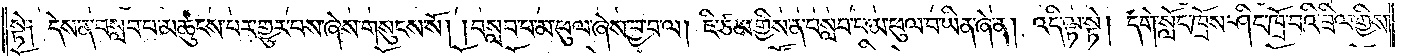སྟེ༑ དེས་ན་བསླབ་པ་མཚུངས་པར་གྱུར་པས་ཞེས་གསུངས་སོ། །བསླབ་པ་མ་ཕུལ་ཞེས་བྱ་བ་ལ། ཇི་ཙམ་གྱིས་ན་བསླབ་པ་མ་ཕུལ་བ་ཡིན་ཞེ་ན། འདི་ལྟ་སྟེ། དགེ་སློང་ཁྲོས་ཤིང་ཁྲོ་བའི་ཟིལ་གྱིས་
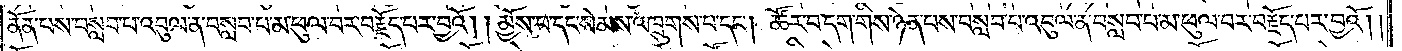ནོན་པས་བསླབ་པ་འབུལ་ན་བསླབ་པ་མ་ཕུལ་བར་བརྗོད་པར་བྱའོ། །མྱོས་པ་དང་སེམས་འཁྲུགས་པ་དང༌། ཚོར་བ་དག་གིས་ཉེན་པས་བསླབ་པ་འབུལ་ན་བསླབ་པ་མ་ཕུལ་བར་བརྗོད་པར་བྱའོ། །
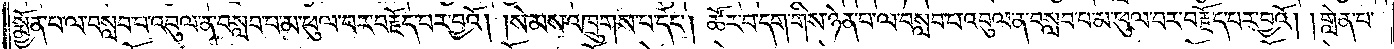སྨྱོན་པ་ལ་བསླབ་པ་འབུལ་ན་བསླབ་པ་མ་ཕུལ་བར་བརྗོད་པར་བྱའོ། །སེམས་འཁྲུགས་པ་དང༌། ཚོར་བ་དག་གིས་ཉེན་པ་ལ་བསླབ་པ་འབུལ་ན་བསླབ་པ་མ་ཕུལ་བར་བརྗོད་པར་བྱའོ། །གླེན་པ་
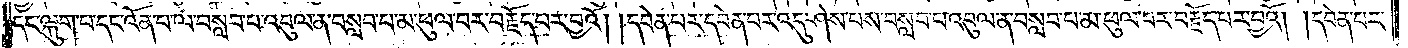དང་ལྐུག་པ་དང་འོན་པ་ལ་བསླབ་པ་འབུལ་ན་བསླབ་པ་མ་ཕུལ་བར་བརྗོད་པར་བྱའོ། །དབེན་པར་དབེན་པར་འདུ་ཤེས་པས་བསླབ་པ་འབུལ་ན་བསླབ་པ་མ་ཕུལ་བར་བརྗོད་པར་བྱའོ། །དབེན་པར་
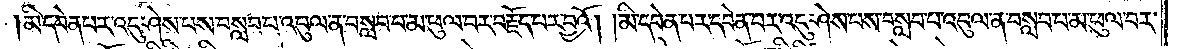།མི་དབེན་པར་འདུ་ཤེས་པས་བསླབ་པ་འབུལ་ན་བསླབ་པ་མ་ཕུལ་བར་བརྗོད་པར་བྱའོ། །མི་དབེན་པར་དབེན་པར་འདུ་ཤེས་པས་བསླབ་པ་འབུལ་ན་བསླབ་པ་མ་ཕུལ་བར་
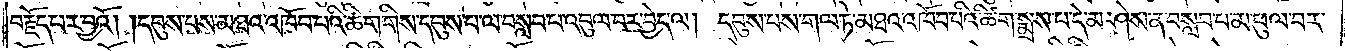བརྗོད་པར་བྱའོ། །དབུས་པས་མཐའ་འཁོབ་པའི་ཚིག་གིས་དབུས་པ་ལ་བསླབ་པ་འབུལ་བར་བྱེད་ལ། དབུས་པས་གལ་ཏེ་མཐའ་འཁོབ་པའི་ཚིག་སྨྲས་པ་དེ་མ་ཤེས་ན་བསླབ་པ་མ་ཕུལ་བར་
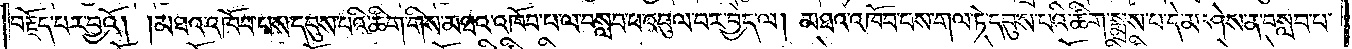བརྗོད་པར་བྱའོ། །མཐའ་འཁོབ་པས་དབུས་པའི་ཚིག་གིས་མཐའ་འཁོབ་པ་ལ་བསླབ་པ་འབུལ་བར་བྱེད་ལ། མཐའ་འཁོབ་པས་གལ་ཏེ་དབུས་པའི་ཚིག་སྨྲས་པ་དེ་མ་ཤེས་ན་བསླབ་པ་
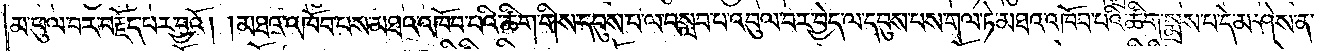མ་ཕུལ་བར་བརྗོད་པར་བྱའོ། །མཐའ་འཁོབ་པས་མཐའ་འཁོབ་པའི་ཚིག་གིས་དབུས་པ་ལ་བསླབ་པ་འབུལ་བར་བྱེད་ལ་དབུས་པས་གལ་ཏེ་མཐའ་འཁོབ་པའི་ཚིག་སྨྲས་པ་དེ་མ་ཤེས་ན་
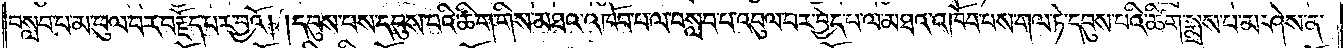བསླབ་པ་མ་ཕུལ་བར་བརྗོད་པར་བྱའོ། །དབུས་པས་དབུས་པའི་ཚིག་གིས་མཐའ་འཁོབ་པ་ལ་བསླབ་པ་འབུལ་བར་བྱེད་པ་ལ་མཐའ་འཁོབ་པས་གལ་ཏེ་དབུས་པའི་ཚིག་སྨྲས་པ་མ་ཤེས་ན་
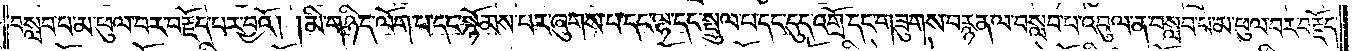བསླབ་པ་མ་ཕུལ་བར་བརྗོད་པར་བྱའོ། །མི་གཉིད་ལོག་པ་དང་སྙོམས་པར་ཞུགས་པ་དང་ལྷ་དང་སྤྲུལ་པ་དང་དུད་འགྲོ་དང་གཟུགས་བརྙན་ལ་བསླབ་པ་འབུལ་ན་བསླབ་པ་མ་ཕུལ་བར་བརྗོད་
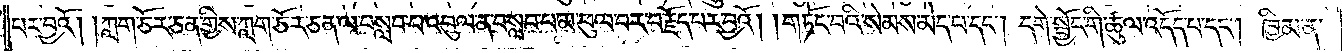པར་བྱའོ། །ཀླག་ཅོར་ཅན་གྱིས་ཀླག་ཅོར་ཅན་ལ་བསླབ་པ་འབུལ་ན་བསླབ་པ་མ་ཕུལ་བར་བརྗོད་པར་བྱའོ། །གཏོང་བའི་སེམས་མེད་པ་དང༌། དགེ་སྦྱོང་གི་ཚུལ་འདོད་པ་དང༌། ཁྱིམ་ན་
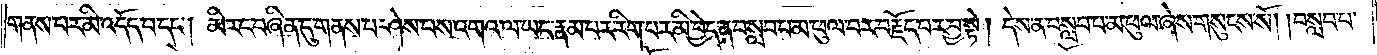གནས་པར་མི་འདོད་པ་དང༌། མི་རང་བཞིན་དུ་གནས་པ་ཤེས་པས་འགའ་ལ་ཡང་རྣམ་པར་རིག་པར་མི་བྱེད་ན་བསླབ་པ་མ་ཕུལ་བར་བརྗོད་པར་བྱ་སྟེ། དེས་ན་བསླབ་པ་མ་ཕུལ་ཞེས་གསུངས་སོ། །བསླབ་པ་
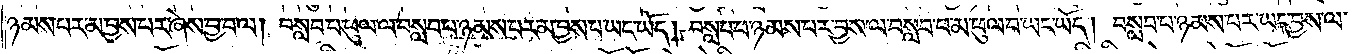ཉམས་པར་མ་བྱས་པར་ཞེས་བྱ་བ་ལ། བསླབ་པ་ཕུལ་ལ་བསླབ་པ་ཉམས་པར་མ་བྱས་པ་ཡང་ཡོད། བསླབ་པ་ཉམས་པར་བྱས་ལ་བསླབ་པ་མ་ཕུལ་བ་ཡང་ཡོད། བསླབ་པ་ཉམས་པར་ཡང་བྱས་ལ་
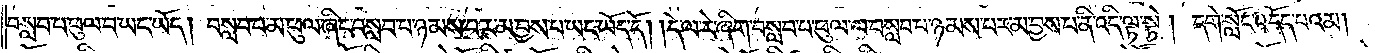བསླབ་པ་ཕུལ་བ་ཡང་ཡོད། བསླབ་པ་མ་ཕུལ་ཞིང་བསླབ་པ་ཉམས་པར་མ་བྱས་པ་ཡང་ཡོད་དོ། །དེ་ལ་རེ་ཞིག་བསླབ་པ་ཕུལ་ལ་བསླབ་པ་ཉམས་པར་མ་བྱས་པ་ནི་འདི་ལྟ་སྟེ། དགེ་སློང་འདོད་པའམ།
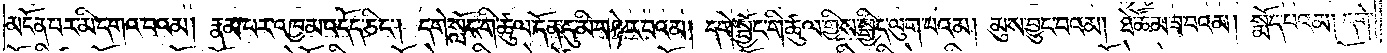མངོན་པར་མི་དགའ་བའམ། རྣམ་པར་འཁྱམ་འདོད་ཅིང༌། དགེ་སློང་གི་ཚུལ་དོན་དུ་མི་གཉེར་བའམ། དགེ་སྦྱོང་གི་ཚུལ་གྱིས་སྒྱིད་ལུག་པའམ། མུས་བྱུང་བའམ། ཐེ་ཚོམ་ཟ་བའམ། སྨོད་པའམ། དགེ་
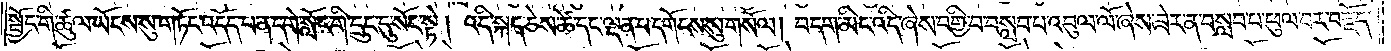སྦྱོང་གི་ཚུལ་ཡོངས་སུ་གཏོང་འདོད་པ་ན་དགེ་སློང་གི་དྲུང་དུ་སོང་སྟེ། འདི་སྐད་ཅེས་ཚེ་དང་ལྡན་པ་དགོངས་སུ་གསོལ། བདག་མིང་འདི་ཞེས་བགྱི་བ་བསླབ་པ་འབུལ་ལོ་ཞེས་ཟེར་ན་བསླབ་པ་ཕུལ་བར་བརྗོད་
